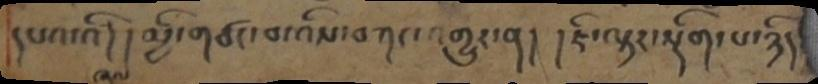དཔའ་འི། །མྱི་གཙང་བ་འིས་བཀང་འགྱུར་ན། །ཇི་ལྟར་སྡིག་པ་ཉིད
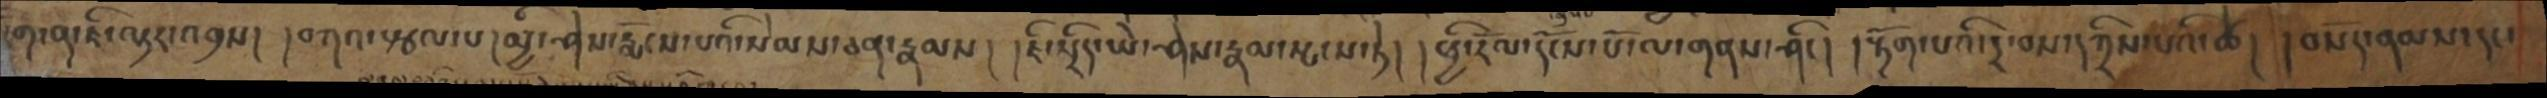རིག་ན་ཇི་ལྟར་འབྲས། །བཀའ་སྩལ་པ། མྱི་ཤེས་རྨོངས་པའི་སེམས་ཅན་རྣམས། །ཇི་སྲིད་ཡེ་ཤེས་རྣམ་སྤངས་ཏེ། །ཕྱི་རོལ་དངོས་པོ་ལ་གནས་ཤིང། །རྟོག་པའི་དྲ་བས་དཀྲིས་པའི་ཚེ། །བསོད་ནམས་དང་
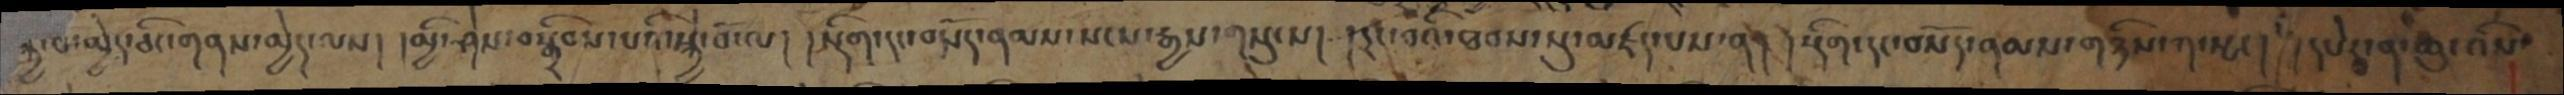སྐྱེ་བ་མྱེད་ཅིང་གནས་མྱེད་ལས། །མྱི་ཤེས་བསྒྲིབས་པའི་སྐྱེ་བོ་ལ། །སྡིག་དང་བསོད་ནམས་སངས་རྒྱས་གསུངས། །དྲང་བའི་ཐབས་སུ་མཛད་པས་ན། །སྡིག་དང་བསོད་ནམས་གཉིས་ཀ་སྤང། །དཔེར་ན་ཆུ་འིས་
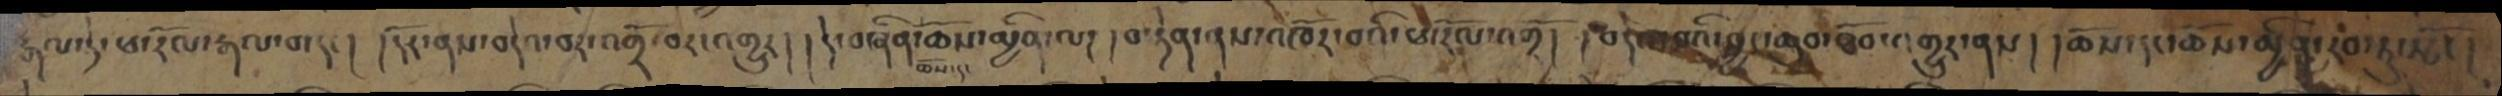རྒལ་ཏེ་ཕ་རོལ་རྒལ་བ་དང། །དོར་ནས་བདེའ་བར་འགྲོ་བར་འགྱུར། །དེ་བཞིན་ཆོས་དང་ཆོས་མྱིན་ལ། །བསྟེན་ནས་འཁོར་བའི་ཕ་རོལ་འགྲོ། །བདེའ་བའི་བྱང་ཆུབ་ཐོབ་འགྱུར་ནས། །ཆོས་དང་ཆོས་མྱིན་རབ་ཏུ་སྤོང།
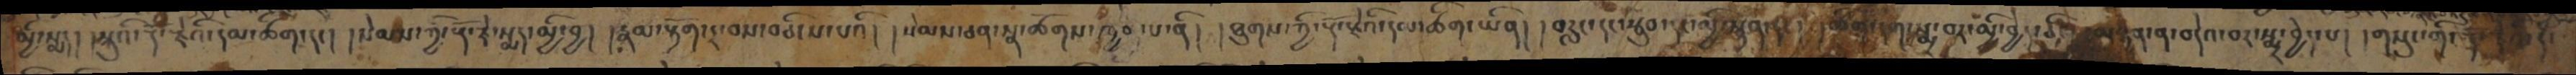མྱི་སྨད། སྐུའི་རྡོ་རྗེའི་དམ་ཚིག་དང། །སེམས་ཀྱི་རྡོ་རྗེ་སྨད་མྱི་བྱ། །རྣམ་རྟོག་དྲ་བས་བཅིངས་པའི། །སེམས་ཅན་སྣ་ཚོགས་ཁྱབ་པ་ནི། །ཐུགས་ཀྱི་རྡོ་རྗེའི་དམ་ཚིག་ཡིན། །བརླང་དང་སྦུབ་དང་མྱི་སྙན་དང། །ཚིག་དག་སྨྲ་བར་མྱི་བྱེད་ཅིང། །བཉན་ན་བདེའ་བར་སྨྲ་བྱེད་པ། །གསུང་གི་རྡོ་རྗེའི་དཾ་
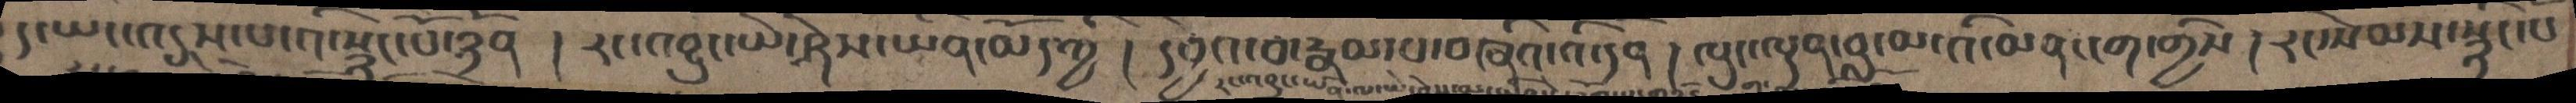ད་ཡང་འདུས་པ་འི་སྙིང་པོ་ཉོན། རང་བྱུང་ཡེ་ཤེས་ཡིན་མོད་ཀྱི། དབྱེའ་བ་རྣམ་པ་བཞིའ་འི་དྲན། ལུང་ལྡན་བླ་མ་འི་མན་ངག་གྱིས། རང་སེམས་སྙིང་པོ
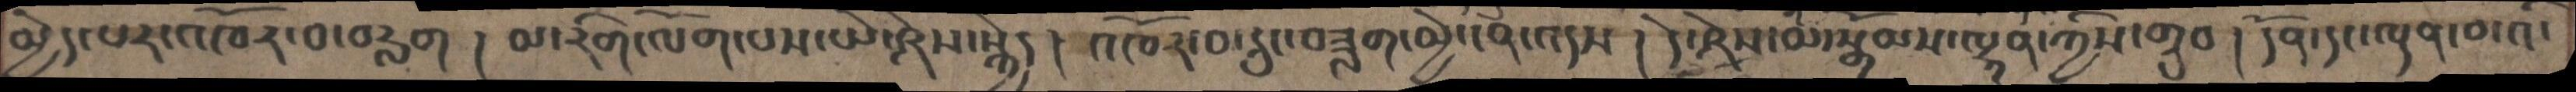མྱེད་པར་འཁོར་བ་བརླག ། མ་རིག་ལོག་པས་ཡེ་ཤེས་སྐྱེད། །འཁོར་བ་དྲུང་བཟློག་མྱེ་ངན་འདས། དེ་ཤེས་མ་སྒོམས་ལྷན་ཀྱིས་གྲུབ། དོན་དང་ལྡན་བ་འི་
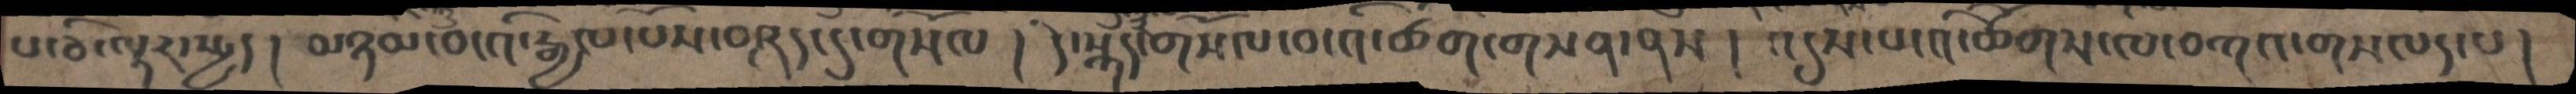པ་ཅི་ལྟར་སྤྱད། མཉམ་བ་འི་རྒྱལ་པོས་བཤད་དུ་གསོལ། དེ་སྐད་གསོལ་བ་འི་ཚིག་གསན་ནས། འདུས་པ་འི་ཚིགས་ལ་བཀའ་གསལད་པ།
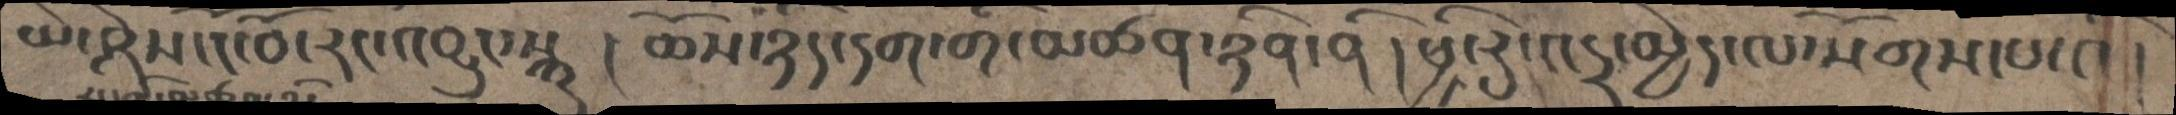ཡེ་ཤེས་ངོ་བོ་རབ་འབྱུང་སྐུ །ཆོས་ཉིད་དག་གི་མཚན་ཉིན་ནི །ཕྱི་རུ་འདྲ་མྱེད་ལ་སོགས་པ་འི།
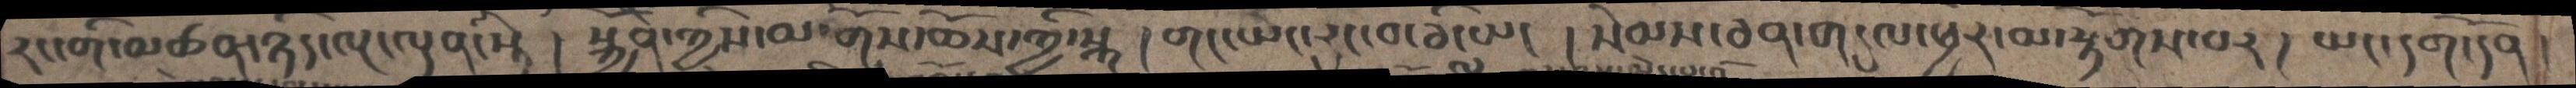རང་གི་མཚན་ཉིད་ལྔ་ལྡན་སྟེ། སྐྱོན་ཀྱིས་མ་གོས་ཆོས་ཀྱི་སྐུ། གང་ཡང་རུང་བ་ཅི་ལ་ཡང། སེམས་ཅན་གདུལ་ཕྱིར་མ་རྟོགས་བར། །ཡང་དག་དོན་
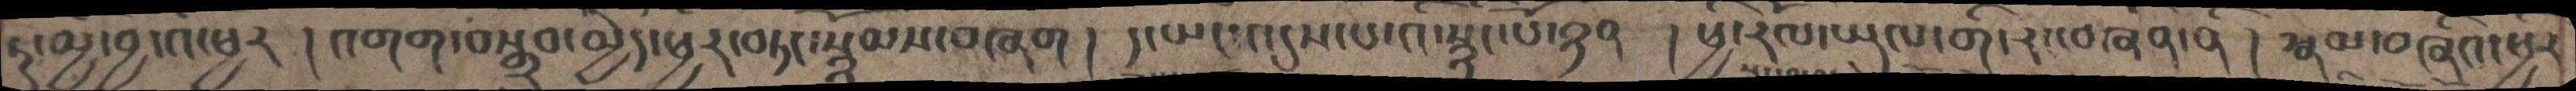ཏུ་མྱི་བྱ་འི་ཕྱིར །འགག་བསྒྲུབ་མྱེད་ཕྱིར་བཏང་སྙོམས་བཞག། ད་ཡང་འདུས་པ་འི་སྙིང་པོ་ཉོན། ཕྱི་རོལ་ཡུལ་གི་རང་བཞིན་ནི། རྣམ་བཞིའ་ཕྱིར་
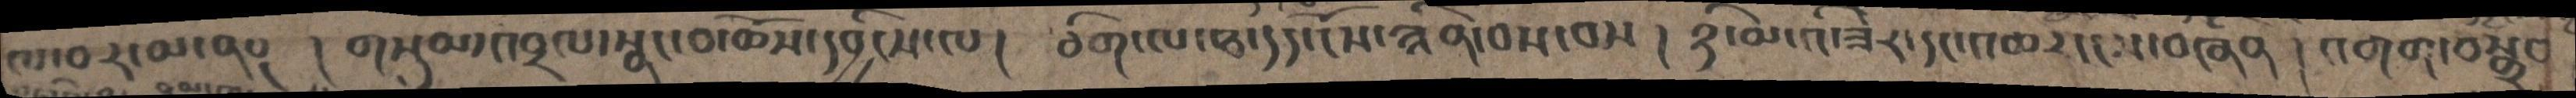ལ་བར་མ་ནས། གསུམ་འབྲལ་སྣང་བ་ཆོས་དབྱིངས་ལ། ཅིག་ལ་ཐ་དད་ངོས་ཟིན་བས་བས། ཉི་མ་འི་ཟེར་དང་འཆར་ངོས་བཞིན། འགག་བསྒྲུབ
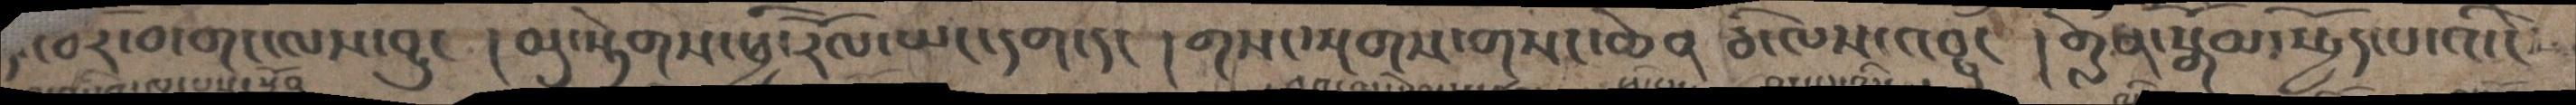འབར་བ་གང་ལས་བྱུང །མུ་སྟེགས་ཕྱི་རོལ་ཡང་དག་དང །གསང་སྔགས་གསང་ཆེན་ཅི་ལས་འབྱུང །གླེན་སྒོམ་སྤྱོད་པ་འི་ངོ
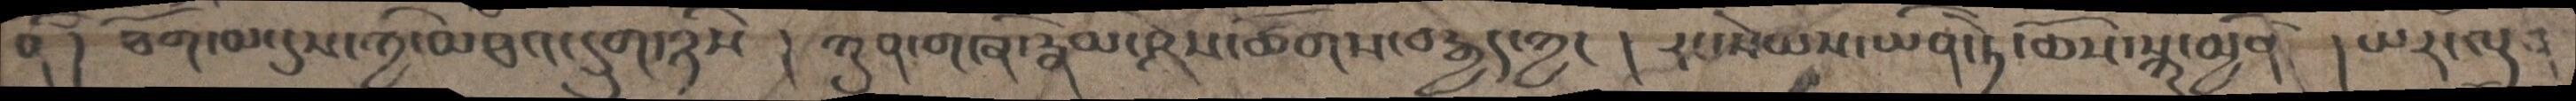བ །ཐོག་མ་དུས་ཀྱི་མཐའ་དྲུག་ཉིས །ཀུན་གཞི་རྣམ་ཤེས་ཚོགས་བརྒྱད་ཀྱང། རང་སེམས་ཡིན་ཏེ་ཆོས་སྐུ་མྱིན །ཡར་ལྡན
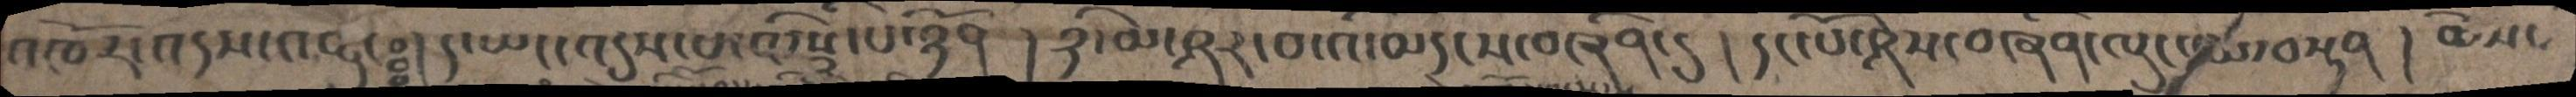འཁོར་འདས་འབྱུངཿ  ། ད་ཡང་འདུས་པ་འི་སྙི་པ་ཉོན །ཉི་མ་ཤར་བ་འི་མདངས་བཞིན་དུ །དང་པོ་ཤེས་བཞིན་ལུང་མ་བསྟན །ཆོས་
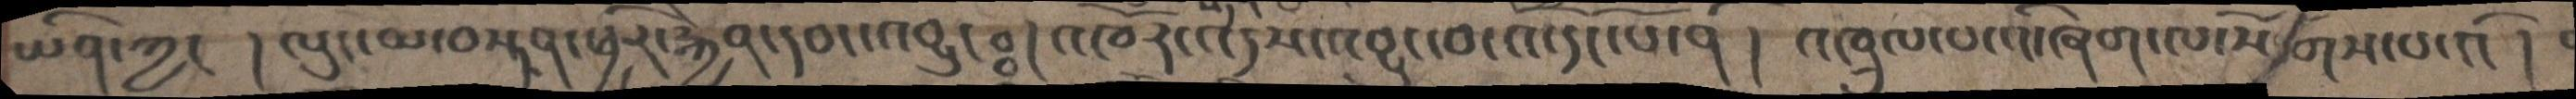ཡིན་ཀྱང །ལུང་མ་བསྟན་ཕྱིར་རྐྱེན་དབང་འབྱུངཿ །འཁོར་འདས་འབྱུང་བ་འི་དང་པོ་ནི། འཁྲུལ་པ་འི་ཞག་ལ་སོགས་པ་འི།
